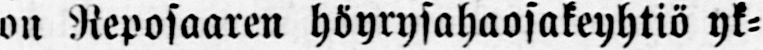on Reposaaren höyrysahaosakeyhtiö yk-
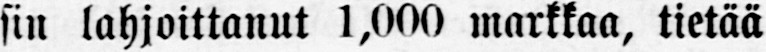sin lahjoittanut 1,000 markkaa, tietää
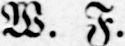W. F.
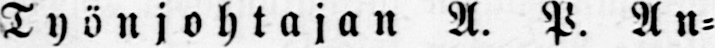Työnjohtajan A. P. An-
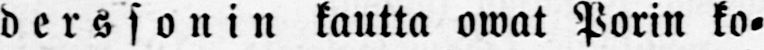derssonin kautta owat Porin ko-
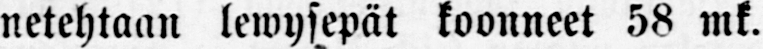netehtaan lewysepät koonneet 58 mk.
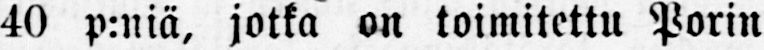40 p:niä, jotka on toimitettu Porin
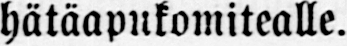hätäapukomitealle.
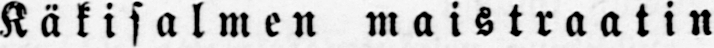Käkisalmen maistraatin
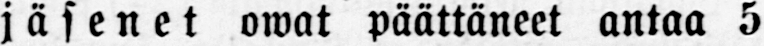jäsenet owat päättäneet antaa 5
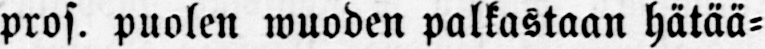pros. puolen wuoden palkastaan hätää-
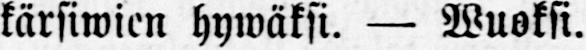kärsiwien hywäksi. — Wuoksi.
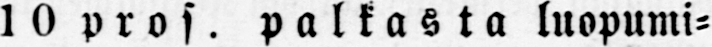10 pros. palkasta luopumi-
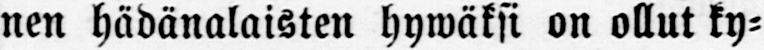nen hädänalaisten hywäksi on ollut ky-
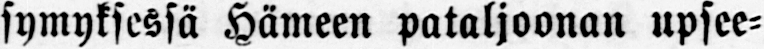symyksessä Hämeen pataljoonan upsee-
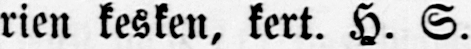rien kesken, kert. H. S.
